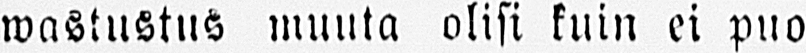wastustus muuta olisi kuin ei puo
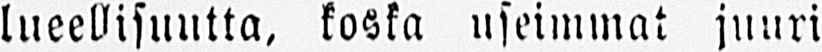lueellisuutta, koska useimmat juuri
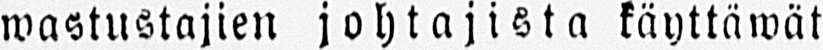wastustajien johtajista käyttäwät
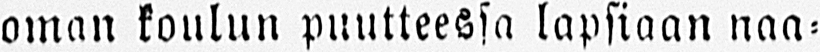oman koulun puutteessa lapsiaan naa-
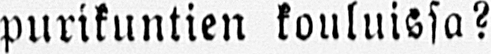purikuntien kouluissa?
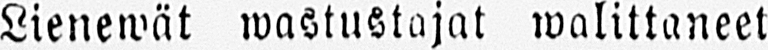Lienewät wastustajat walittaneet
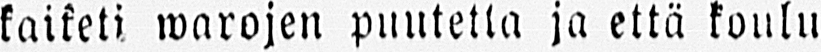kaiketi warojen puutetta ja että koulu
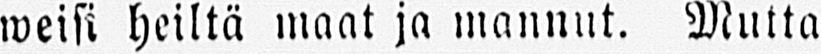weisi heiltä maat ja mannut. Mutta
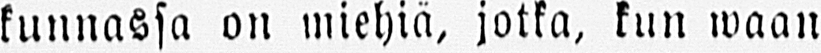kunnassa on miehiä, jotka, kun waan
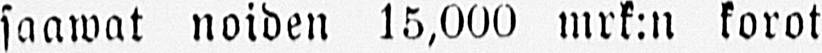saawat noiden 15,000 mrk:n korot
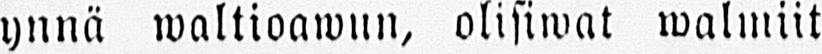ynnä waltioawun, olisiwat walmiit
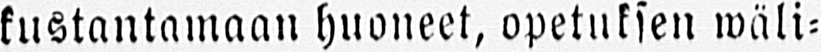kustantamaan huoneet, opetuksen wäli-
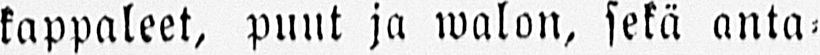kappaleet, puut ja walon, sekä anta-
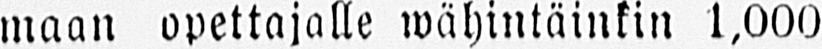maan opettajalle wähintäinkin 1,000
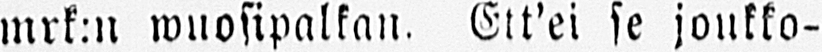mrk:n wuosipalkan. Ett’ei se joukko-
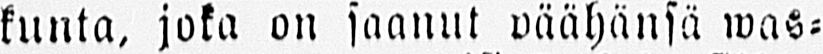kunta, joka on saanut päähänsä was-
